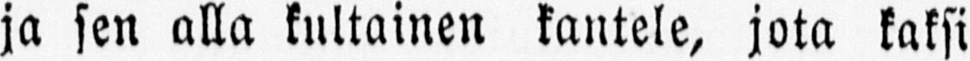ja sen alla kultainen kantele, jota kaksi
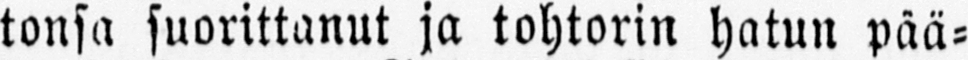tonsa suorittanut ja tohtorin hatun pää-
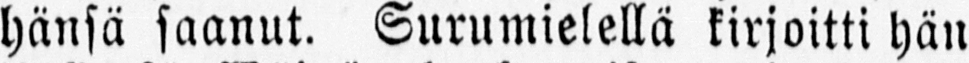hänsä saanut. Surumielellä kirjoitti hän
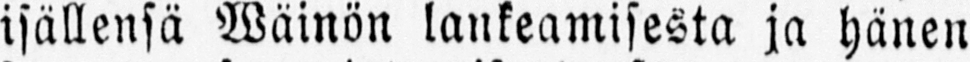isällensä Wäinön lankeamisesta ja hänen
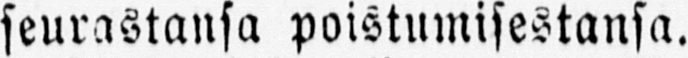seurastansa poistumisestansa.
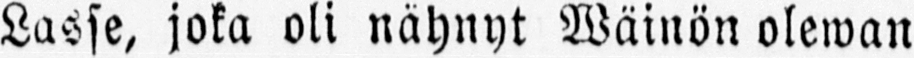Lasse, joka oli nähnyt Wäinön olewan
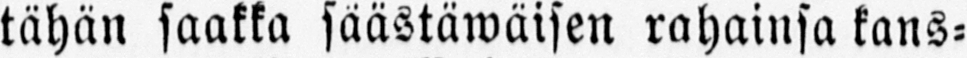tähän saakka säästäwäisen rahainsa kans-
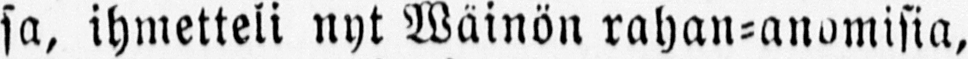sa, ihmetteli nyt Wäinön rahan-anomisia,
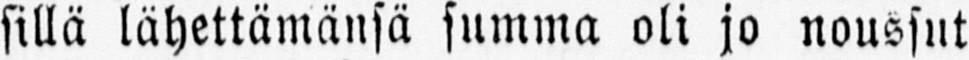sillä lähettämänsä summa oli jo noussut
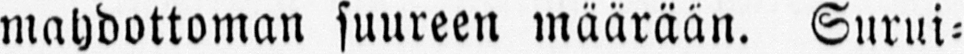mahdottoman suureen määrään. Surui-
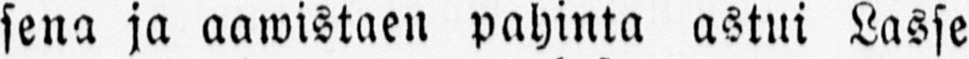sena ja aawistaen pahinta astui Lasse
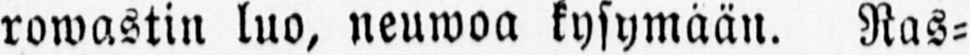rowastin luo, neuwoa kysymään. Ras-
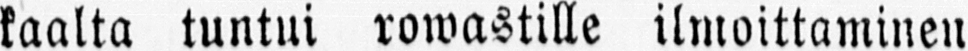kaalta tuntui rowastille ilmoittaminen
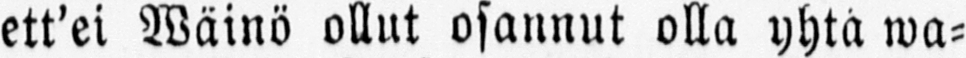ett'ei Wäinö ollut osannut olla yhtä wa-
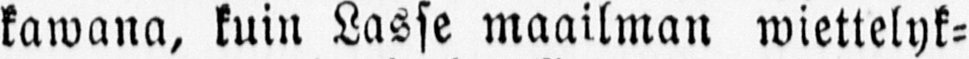kawana, kuin Lasse maailman wiettelyk-
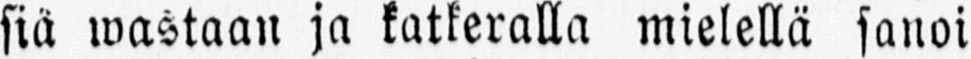siä wastaan ja katkeralla mielellä sanoi
